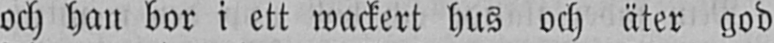och han bor i ett wackert hus och äter god
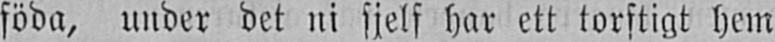föda, under det ni sjelf har ett torftigt hem
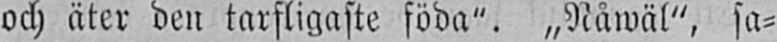och äter den tarfligaste föda". „Nåwäl", sa-
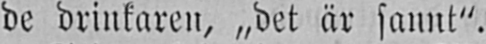de drinkaren, „det är sannt".
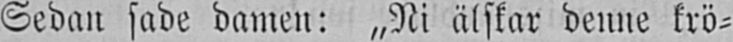Sedan sade damen: „Ni älskar denne krö-
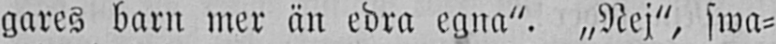gares barn mer än edra egna". „Nej", swa-
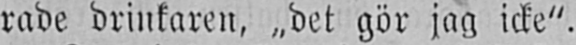rade drinkaren, „det gör jag icke".
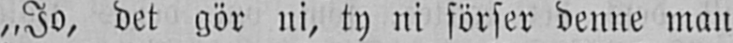"Jo, det gör ni, ty ni förser denne man
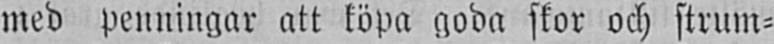med penningar att köpa goda skor och strum-
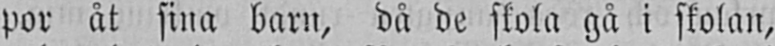por åt sina barn, då de skola gå i skolan,
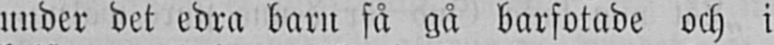under det edra barn få gå barfotade och i
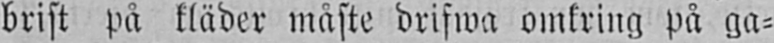brist på kläder måste drifwa omkring på ga-
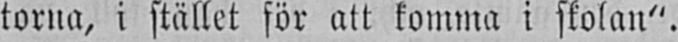torna, i stället för att komma i skolan".
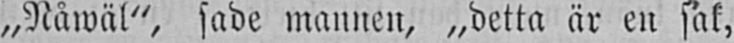„Nåwäl", sade mannen, „detta är en sak,
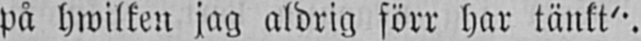på hwilken jag aldrig förr har tänkt".
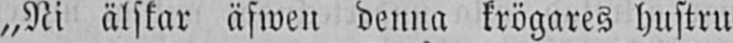„Ni älskar äfwen denna krögares hustru
